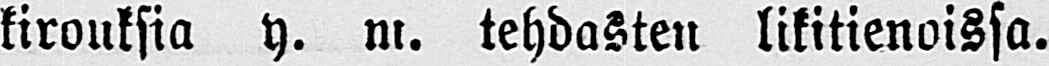kirouksia y. m. tehdasten likitienoissa.
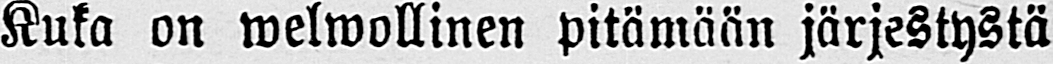Kuka on welwollinen pitämään järjestystä
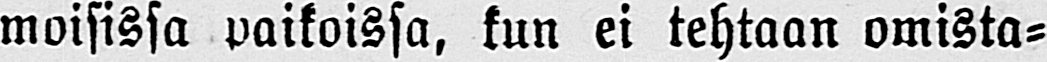moisissa paikoissa, kun ei tehtaan omista-
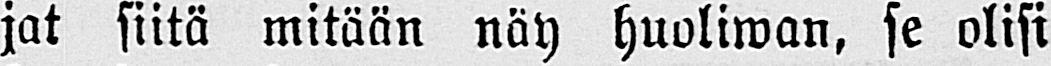jat siitä mitään näy huoliwan, se olisi
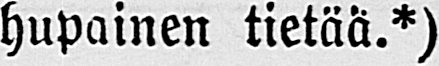hupainen tietää.*)
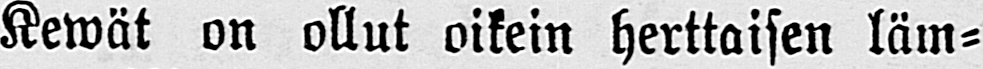Kewät on ollut oikein herttaisen läm-
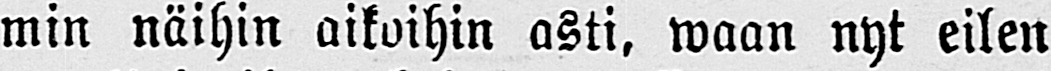min näihin aikoihin asti, waan nyt eilen
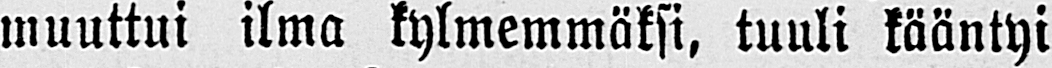muuttui ilma kylmemmäksi, tuuli kääntyi
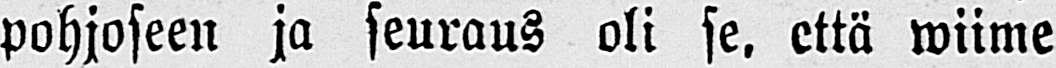Pohjoseen ja seuraus oli se, että wiime
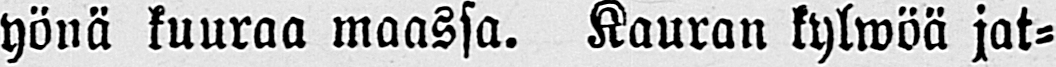yönä kuuraa maassa. Kauran kylwöä jat-
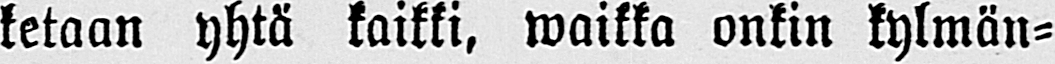ketaan yhtä kaikki, waikka onkin kylmän-
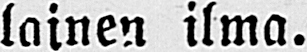lainen ilma.
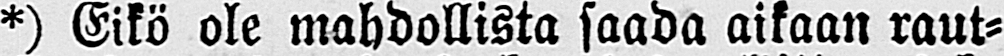*) Eikö ole mahdollista saada aikaan raut-
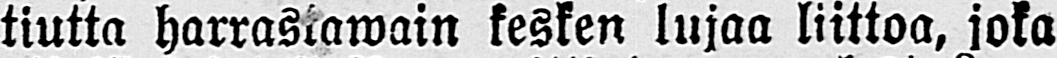tiutta harrastawain kesken lujaa liittoa, joka
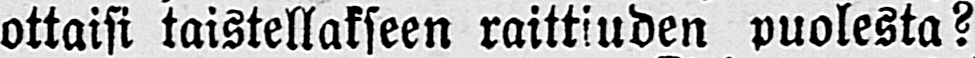ottaisi taistellakseen raittiuden puolesta?
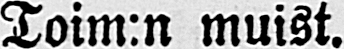Toim:n muist.
